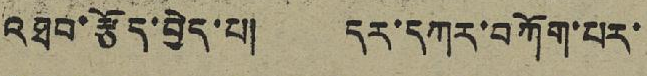འཐབ་རྩོད་བྱེད་པ། དར་དཀར་བཀོག་པར་
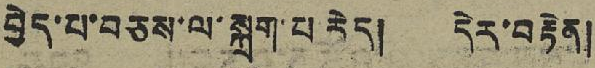བྱེད་པ་བཅས་ལ་སྐྲག་པ་རེད། དེར་བརྟེན།
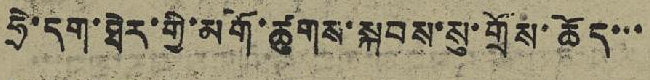ཧྲེ་དག་ཐེར་གྱི་མགོ་ཚུགས་སྐབས་སུ་གྲོས་ཆོད་་་
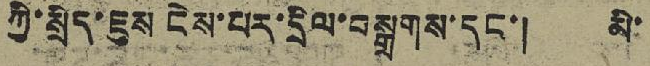ཀྱི་སྲིད་ཇུས ངེས་པར་དྲིལ་བསྒྲགས་དང་། མི་
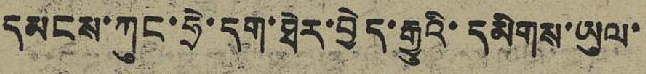དམངས་ཀུང་ཧྲེ་དག་ཐེར་བྱེད་རྒྱུའི་དམིགས་ཡུལ་
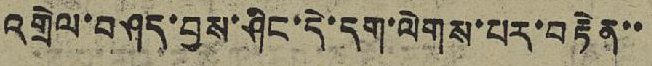འགྲེལ་བཤད་བྱས་ཤིང་དེ་དག་ལེགས་པར་བརྟེན་་
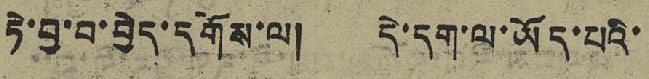ཏེ་བྱ་བ་བྱེད་དགོས་ལ། དེ་དག་ལ་ཡོད་པའི་
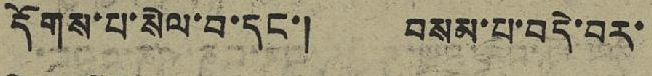དོགས་པ་སེལ་བ་དང་། བསམ་པ་བདེ་བར་
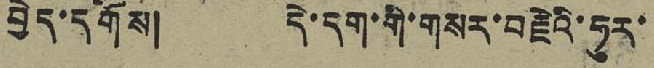བྱེད་དགོས། དེ་དག་གི་གསར་བརྗེའི་ཧུར་
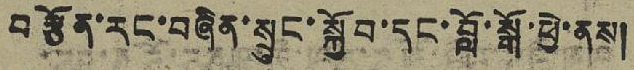བརྩོན་རང་བཞིན་སྲུང་སྐྱོབ་དང་བློ་སྒོ་ཕྱེ་ནས།
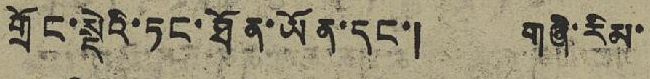གྲོང་སྡེའི་ཏང་ཐོན་ཡོན་དང་། གཞི་རིམ་
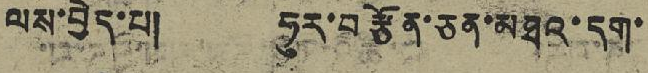ལས་བྱེད་པ། ཧུར་བརྩོན་ཅན་མཐའ་དག་
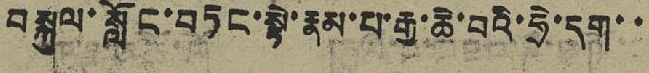བསྐུལ་སློང་བཏང་སྟེ་རྣམ་པ་རྒྱ་ཆེ་བའི་ཧྲེ་དག་་
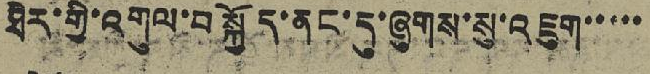ཐེར་གྱི་འགུལ་བསྐྱོད་ནང་དུ་ཞུགས་སུ་འཇུག་་་་་
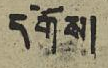དགོས།
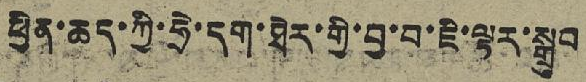ཕྱིན་ཆད་ཀྱི་ཧྲེ་དག་ཐེར་གྱི་བྱ་བ་ཇི་ལྟར་སྒྲུབ
